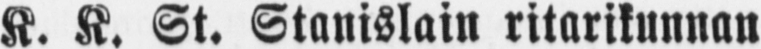K. K. St. Stanislain ritarikunnan
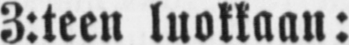3:teen luokkaan:
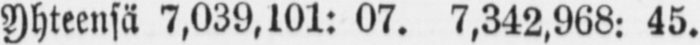Yhteensä 7,039,101: 07. 7,342,968: 45.
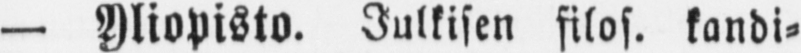— Yliopisto. Julkisen filos. kandi-
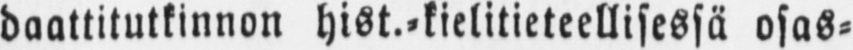daattitutkinnon hist.-kielitieteellisessä osas-
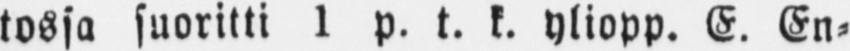tossa suoritti 1 p. t. k. yliopp. E. En-
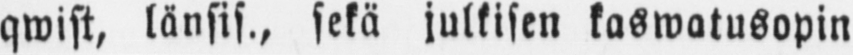qwist, länsis., sekä julkisen kaswatusopin
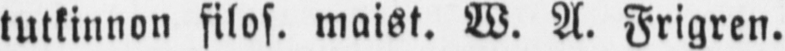tutkinnon filos. maist. W. A. Frigren.
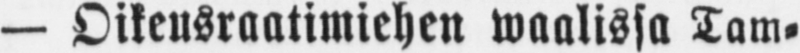— Oikeusraatimiehen waalissa Tam-
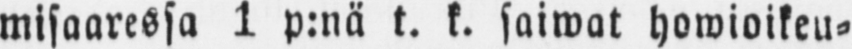misaaressa 1 p:nä t. k. saiwat howioikeu-
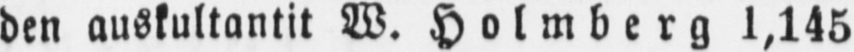den auskultantit W. Holmberg 1,145
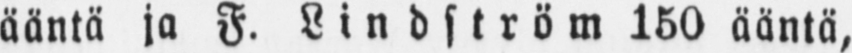ääntä ja F. Lindström 150 ääntä,
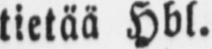tietää Hbl.
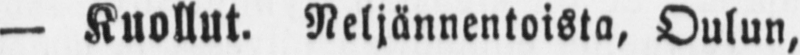— Kuollut. Neljännentoista, Oulun,
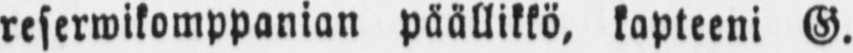reserwikomppanian päällikkö, kapteeni G.
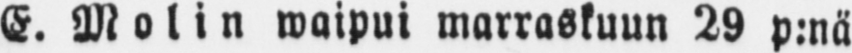S. Molin waipui marraskuun 29 p:nä
